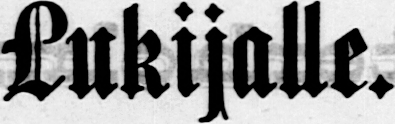Lukijalle.
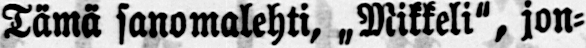Tämä sanomalehti, „Mikkeli", jon-
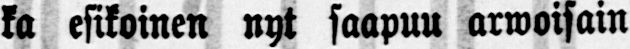ka esikoinen nyt saapuu arwoisain
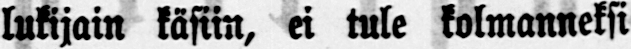lukijain käsiin, ei tule kolmanneksi
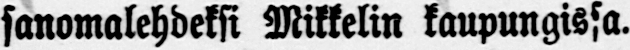sanomalehdeksi Mikkelin kaupungissa.
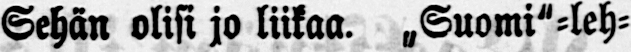Sehän olisi jo liikaa. „Suomi"-leh-
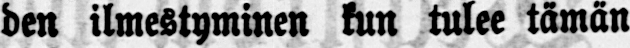den ilmestyminen kun tulee tämän
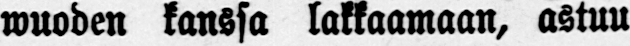wuoden kanssa lakkaamaan, astuu
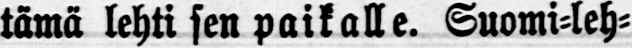tämä lehti sen paikalle. Suomi-leh-
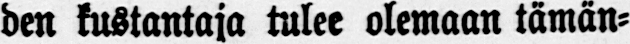den kustantaja tulee olemaan tämän-
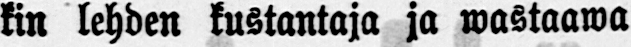kin lehden kustantaja ja wastaawa
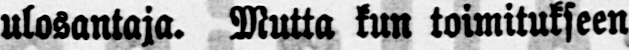ulosantaja. Mutta kun toimitukseen
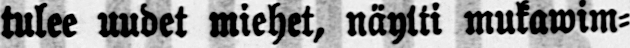tulee uudet miehet, näytti mukawim-
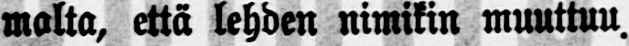malta, että lehden nimikin muuttuu.
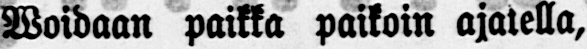Woidaan paikka paikoin ajatella,
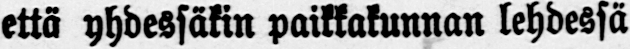että yhdessäkin paikkakunnan lehdessä
